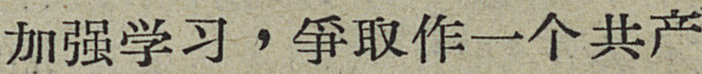加强学习，爭取作一个共产
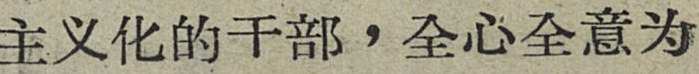主义化的干部，全心全意为
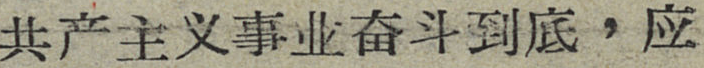共产主义事业奋斗到底，应
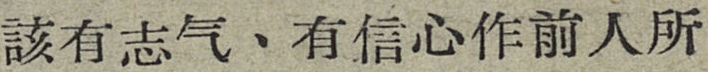該有志气、有信心作前人所
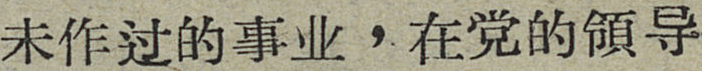未作过的事业，在党的領导
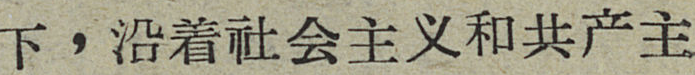下，沿着社会主义和共产主
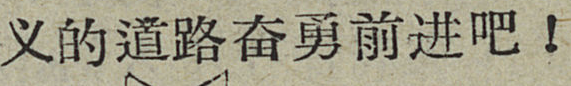义的道路奋勇前进吧！
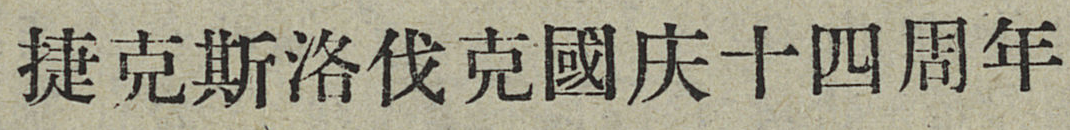捷克斯洛伐克國庆十四周年
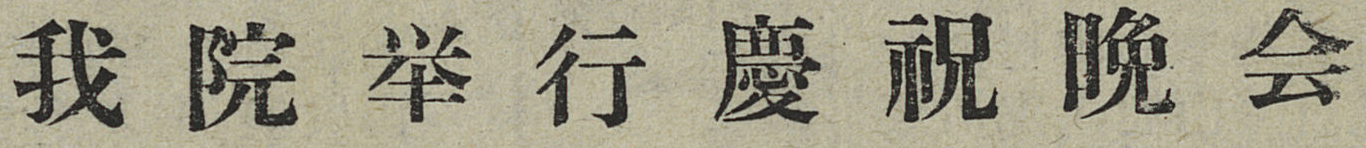我院举行慶祝晚会
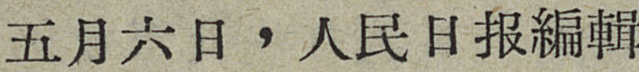五月六日，人民日报編輯
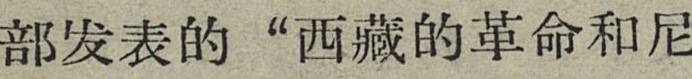部发表的“西藏的革命和尼
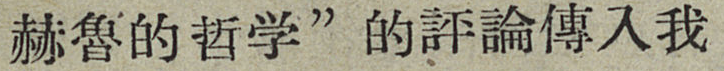赫魯的哲学”的評論傳入我
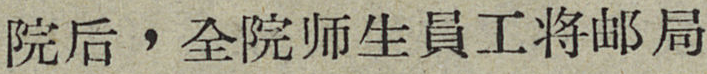院后，全院师生員工将邮局
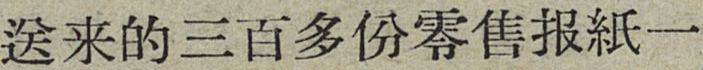送来的三百多份零售报紙一
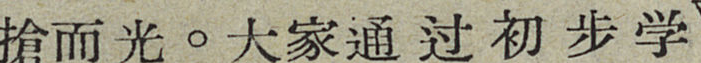搶而光。大家通过初步学
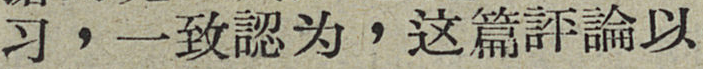习，一致認为，这篇評論以
